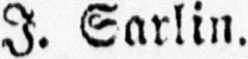I. Sarlin.
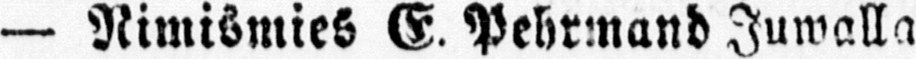— Nimismies E. Pehrmand Juwalla
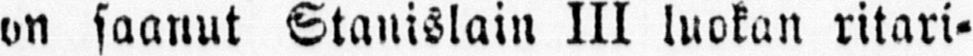on saanut Stanislain III luokan ritari-
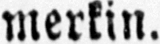merkin.
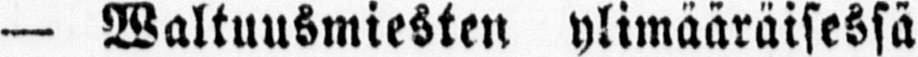— Waltuusmiesten ylimääräisessä
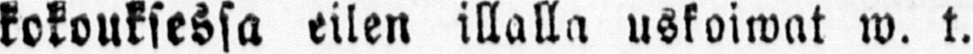kokouksessa eilen illalla uskoiwat w. t.
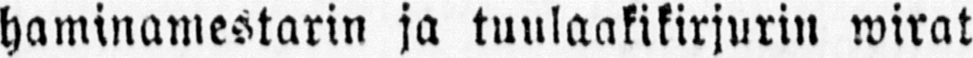haminamestarin ja tuulaakikirjurin wirat
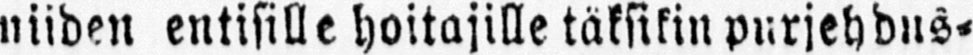niiden entisille hoitajille täksikin purjehdus-
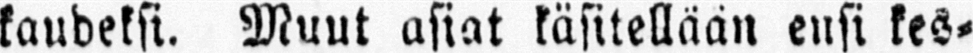kaudeksi. Muut asiat käsitellään ensi kes-
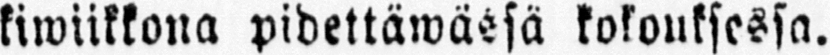kiwiikkona pidettäwässä kokouksessa.
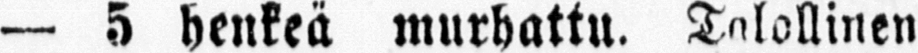— 5 henkeä murhattu. Talollinen
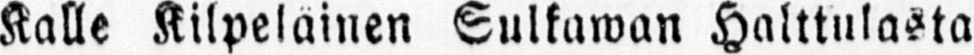Kalle Kilpeläinen Sulkawan Halttulasta
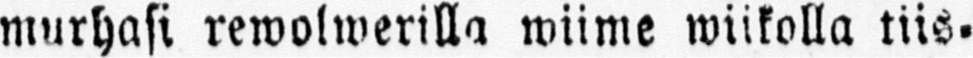murhasi rewolwerilla wiime wiikolla tiis-
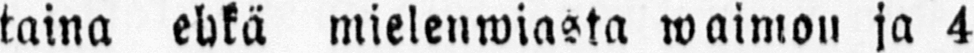taina ehkä mielenwiasta waimon ja 4
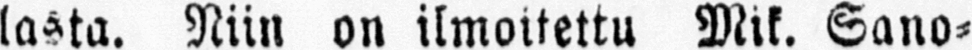lasta. Niin on ilmoitettu Mik. Sano-
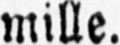mille.
